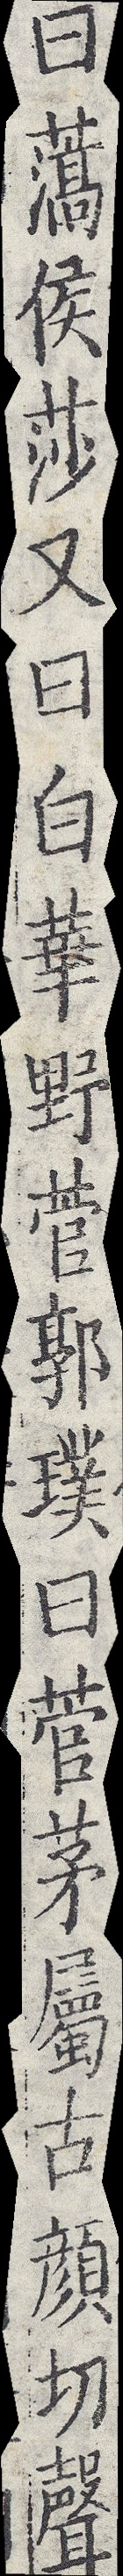曰薃侯莎又曰白華野菅郭璞曰菅茅屬古顏切聲
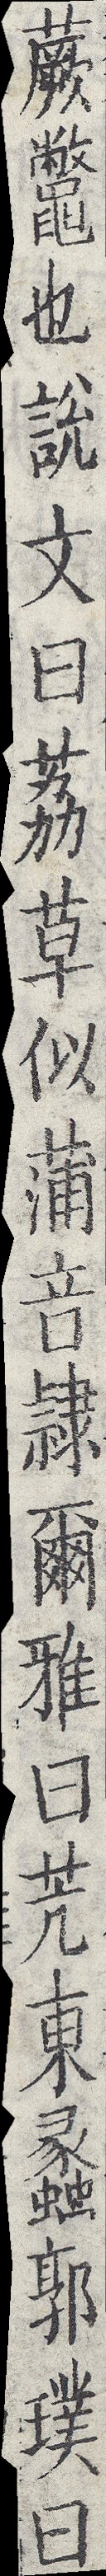蕨鼈也說文曰荔草似蒲音隸爾雅曰苀東蠡郭璞曰
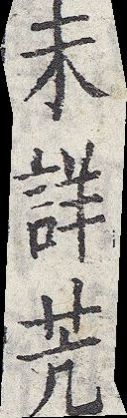未詳苀
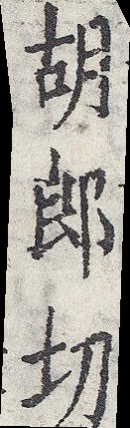胡郎切
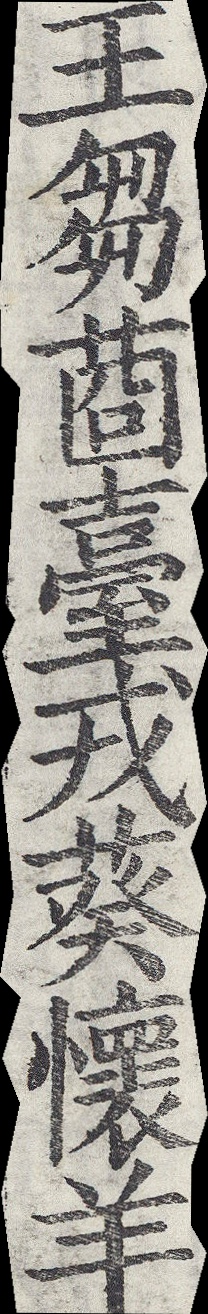王芻莔臺戎葵懷羊
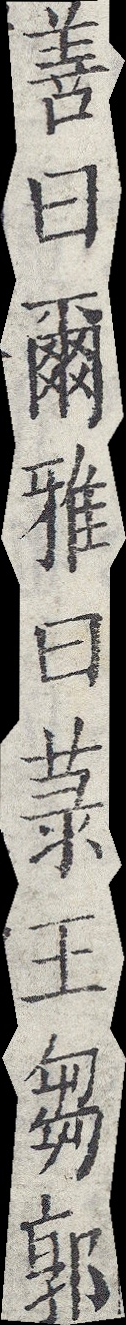善曰爾雅曰菉王芻郭
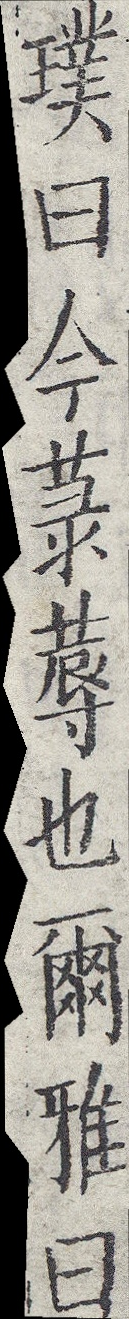璞曰今菉蓐也爾雅曰
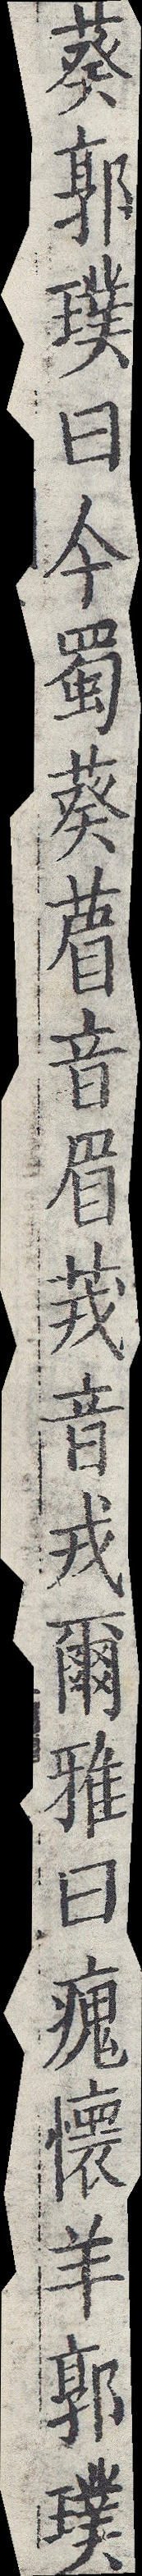葵郭璞曰今蜀葵葿音眉茙音戎爾雅曰瘣懷羊郭璞
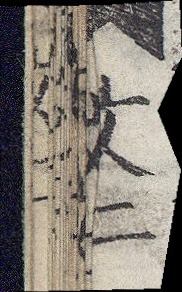文二
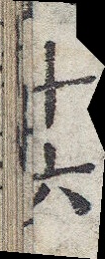十六
